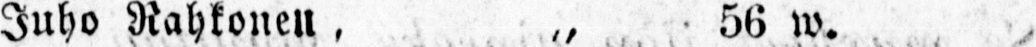Juho Rahkonen, " 56 w. ,
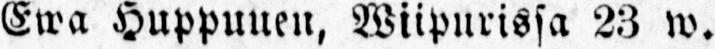Ewa Huppunen, Wiipurissa 23 m.
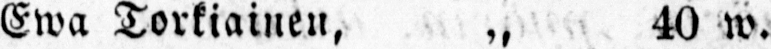Ewa Torkiainen, ,, 40 w.
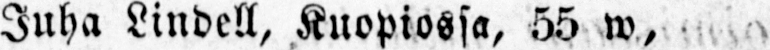Juha Lindell, Kuopiossa, 55 w, .
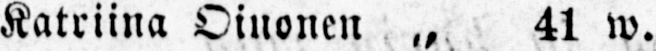Katriina Oinonen „ 41 w.
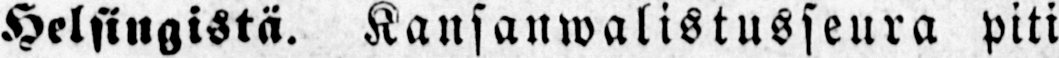Helsingistä. Kansanwalistusseura piti
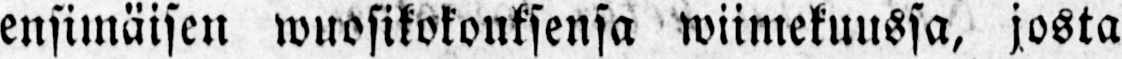ensimäisen wuosikokouksensa wiimekuussa, josta
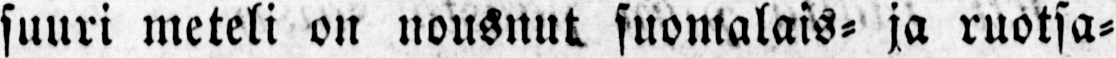suuri meteli on nousnut suomalais- ja ruotsa-
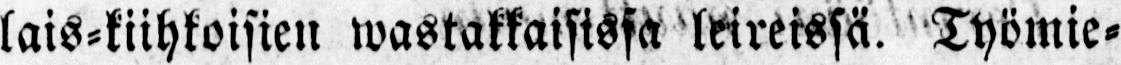lais-kiihkoisien wastakkaisissa Työmie-
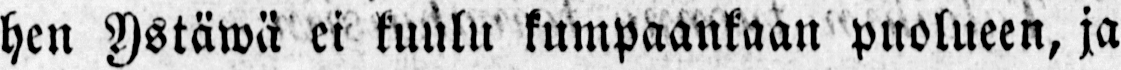hen Ystäwä ei kuulu kumpaankaan puolueen, ja
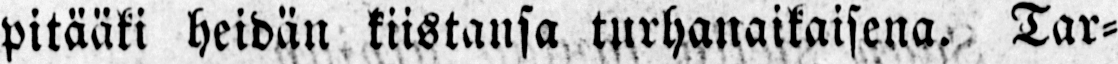pitääki heidän kiistansa turhanaikaisena. Tar-
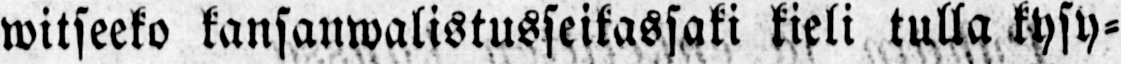witseeko kansanwalistusseikassaki kieli tulla kysy-
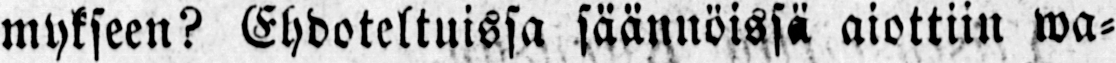mykseen? Ehdoteltuissa säännöissä aiottiin wa-
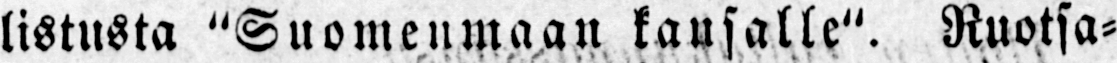listusta "Suomenmaan kansalle". Ruotsa-
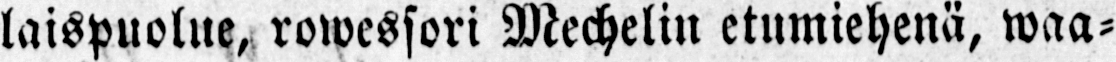laispuolue, rowessori Mechelin etumiehenä, waa-
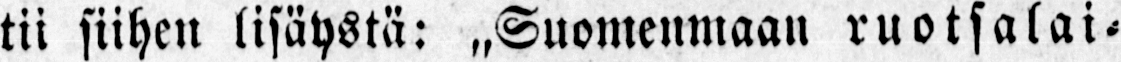tii siihen lisäystä: ruotsalai-
